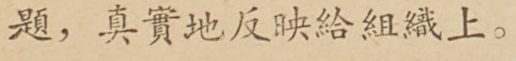題，真實地反映給組織上。
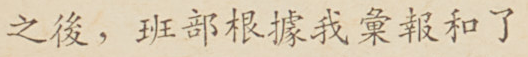之後，班部根據我彙報和了
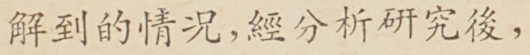解到的情況，經分析研究後，
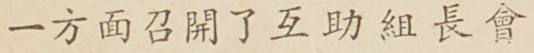一方面召開了互助組長會
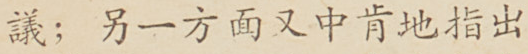議；另一方面又中肯地指出
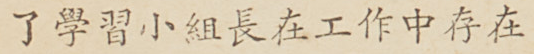了學習小組長在工作中存在
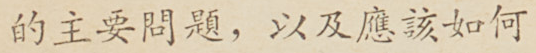的主要問題，以及應該如何
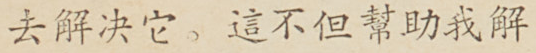去解決它。這不但幫助我解
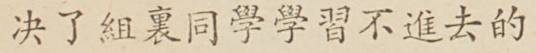決了組裏同學學習不進去的
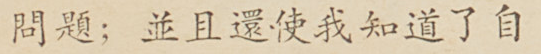問題；並且還使我知道了自
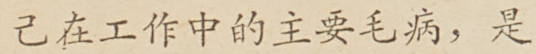己在工作中的主要毛病，是
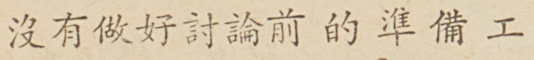沒有做好討論前的準備工
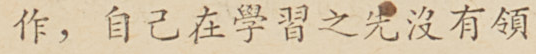作，自己在學習之先沒有領
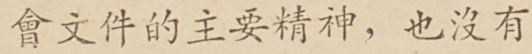會文件的主要精神，也沒有
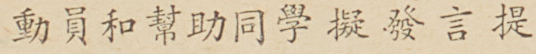動員和幫助同學擬發言提
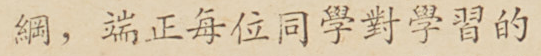綱，端正每位同學對學習的
